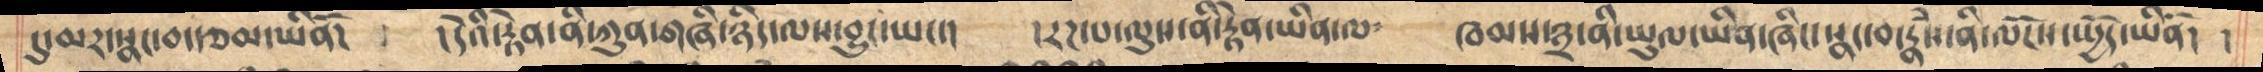དུ་མར་སྣང་བ་རྩམ་ཡིནོ།  །དེའི་རྟེན་ནི་ཀུན་གཞི་ཉིད་ལས་བྱུང་ཡང་། །རཌ་པ་ལུས་ནི་རྟེན་ཡིན་ལ༴    ཁམས་༣་ནི་ཡུལ་ཡིན་ཞིང་སྣང་བ་རྣཾས་ནི་ལོངས་སྤྱོད་ཡིནོ། །
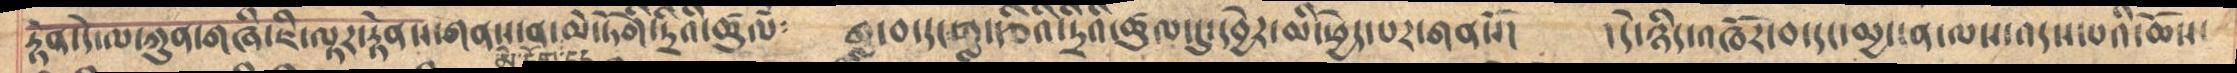རྟོན་དེ་ལ་ཀུན་གཞི་ཇི་ལྟར་རྟེནས་གནས་ན་མེ་ཏོག་དང་མེ་ཏོགི་དྲིའི་ཚུལ༴  གླ་བ་དང་གླ་རྩིའི་དྲིའི་ཚུལ་དུ་དབྱེར་མི་ཕྱེད་པར་གནསོ།    །དེ་ཉིད་འཁོར་བ་དང་མྱ་ངན་ལས་འདས་པའི་ཆོས་
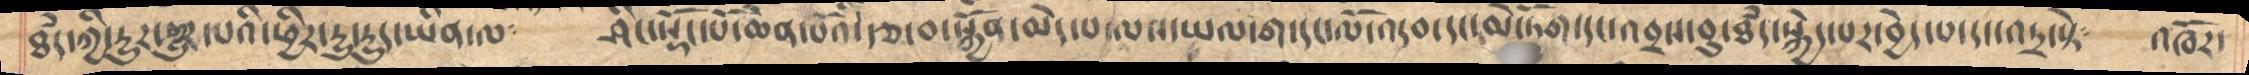ཐཾད་ཀྱི་དྱུར་གྱུར་པའི་ཕྱིར་དྱུ་དྱུད་ཡིན་ལ༴    ཤིང་སྡོང་པོ་ཆེན་པོའི་རྩ་བ་སྐྱོན་མེད་པ་ལས་ཡལ་ག་དང་ལོ་འདབ་དང་མེ་ཏོག་དང་འབྲས་བུ་ཐམད་སྐྱེད་པར་བྱེད་པ་དང་འདྲ་སྟེ༴   འཁོར་
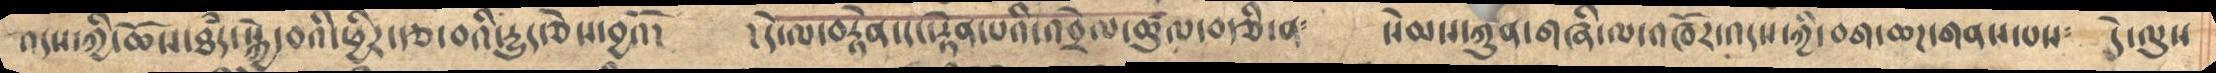འདས་ཀྱི་ཆོས་ཐཾད་སྐྱེ་བའི་ཕྱིར་རྩ་བའི་དྱུད་ཅེས་བྱའོ།    །དེ་ལ་བརྟེན་དང་རྟེན་པའི་འབྲེལ་ཚུལ་བརྩི་ན༴   སེམས་ཀུན་གཞི་ལ་འཁོར་འདས་ཀྱི་བག་ཆཌ་གནས་པས༴   དེ་ལུས
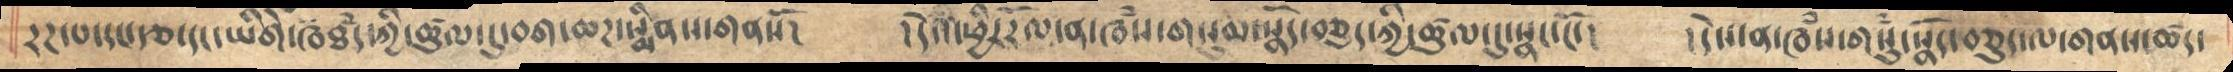རཌ་པ་དང་རྩ་དང་ཡིགེ་ཁཐམད་ཀྱི་ཚུལ་དུ་བག་ཆཌ་སྨིནས་གནསོ།   །དེའི་ཕྱི་རོལ་ན་ཁཾས་གསུམ་སྣོད་བཅུད་ཀྱི་ཚུལ་དུ་སྣང་ངོ་།   །དེས་ན་ཁཾས་གསུཾ་སྣོད་བཅུད་ལ་གནས་ཚད་
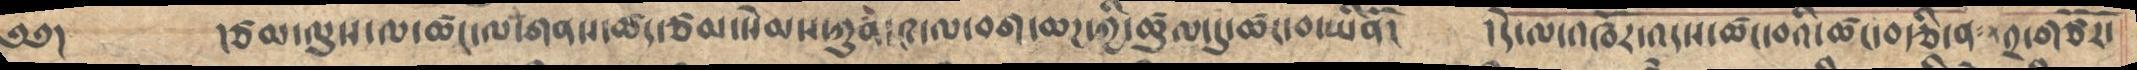༄༅།      །ཙམ་ལུས་ལ་ཚང་ལ་གནས་ཚད་ཙམ་སེམས་ཀུན་༤་ལ་བག་ཆཌ་ཀྱི་ཚུལ་དུ་ཚང་བ་ཡིནོ།    །དེ་ལ་འཁོར་འདས་ཚང་བའི་ཚང་བརྩི་ན་༢་གཙཽར་
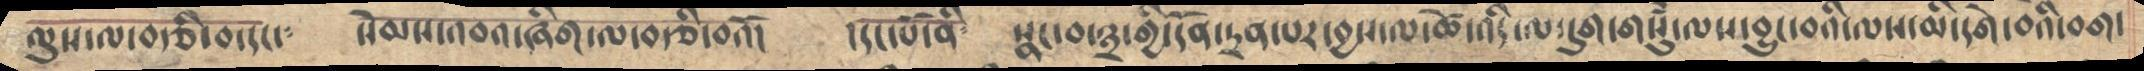ལུས་ལ་བརྩི་བ་དང་༴      སེམས་འབའ་ཞིག་ལ་བརྩི་བའོ།    །དང་པོ་ནི་      སྣང་བ་༣་གྱི་དོན་དྲན་པར་བྱས་ལ་ཚེ་འདི་ལ་དུག་གསུཾ་ལས་བྱུང་བའི་ལས་མི་དགེ་བའི་བག་
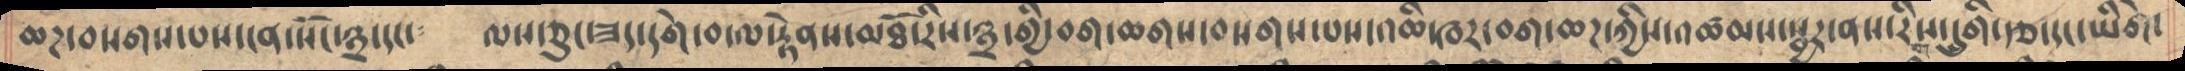ཆཌ་བསགས་པས་ངན་སོང་༣་དང་༴   ལས་ཅུང་ཟད་དགེ་བ་ལ་རྟེནས་མཐོ་རིས་༣་གྱི་བག་ཆགས་བསགས་པས་འཆི་ཁར་བག་ཆཌ་ཀྱིས་འཚམས་སྦྱར་ནས་རིགས་དྲུགི་རྩ་དང་ཡིགེ་
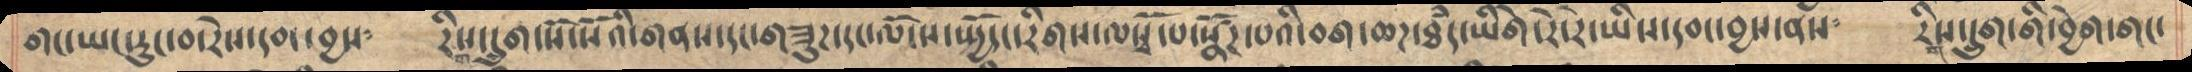གང་ཡང་རུང་བ་རེས་དབང་བྱས༴   རིགས་དྲུག་སོ་སོའི་གནས་དང་གཟུཌ་དང་ལོངས་སྤྱོད་རིགས་ལསྭོ་པ་སྣཚོཌ་པའི་བག་ཆཌ་ཐཾད་ཡིགེ་རེ་རེ་ཡིས་དབང་བྱས་ནས༴   རིགས་དྲུག་གི་བྱེག་གང་
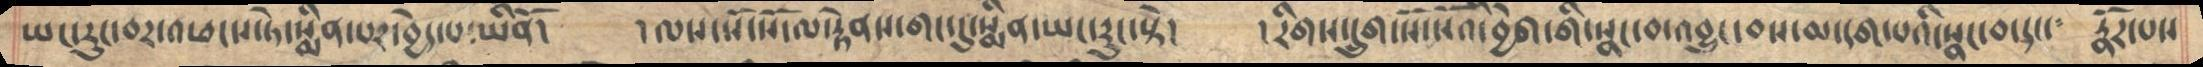ཡང་རུང་བར་འཕངས་ཏེ་སྨིན་པར་བྱེད་པ་ཡིནོ།    །ལས་སོ་སོ་ལ་རྟེནས་གང་དུ་སྨིན་ཡང་རུང་སྟེ།    །རིགས་དྲུག་སོ་སོའི་བྱེག་གི་སྣང་བ་འབྱུང་བས་མ་དག་པའི་སྣང་བ་དང་༴   རྣོར་པས
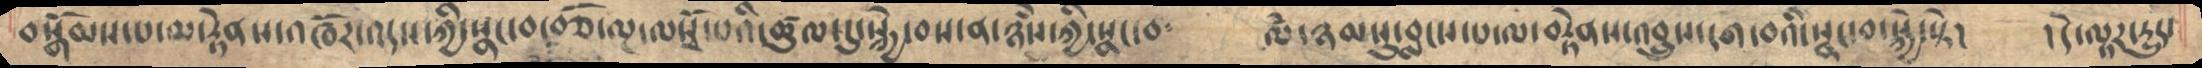བསྒོམས་པ་མ་རྟེནས་འཁོར་འདས་ཀྱི་སྣང་བ་བཅོ་ལྔ་ལསྭོ་པའི་ཚུལ་དུ་སྐྱེ་བས་ན་ཉཾས་ཀྱི་སྣང་བ༴    ལཾ་ཉམསུ་བླངས་པ་ལ་བརྟེནས་འབྲུས་དག་བའི་སྣང་བ་སྐྱེ་སྟེ།    །དེ་ལྟར་དྱུད་
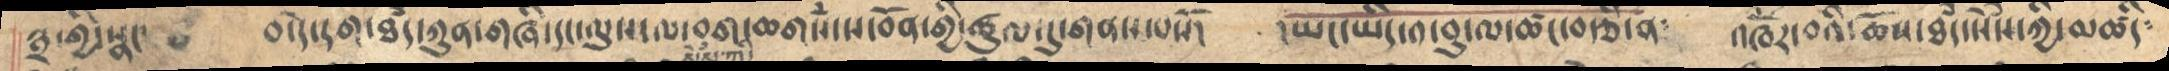༣་གྱི་སྣང་    བ་དེ་དག་ཐམད་ཀུན་གཞི་དང་ལུས་ལ་བག་ཆགསཾ་ས་བོན་གྱི་ཚུལ་དུ་གནས་པསོ།    །ཡང་ཡིད་༡་བུ་ལ་ཚང་བརྩི་ན༴    འཁོར་བའི་ཆོས་ཐམད་སེཾས་ཀྱི་མཚིད༴
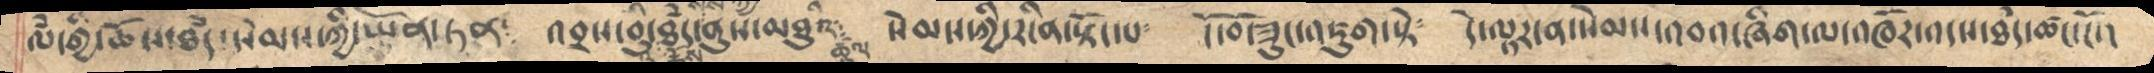ལཾ་གྱི་ཆོས་ཐཾད་སེམས་ཀྱི་ཡོན་ཏན༴  འབྲས་བུའི་ཆོས་ཐཾད་ནུས་མཐུའི་ཚུལ  སེམས་ཀྱི་རངིན་སྟོང་པ༴  ངོ་བོ་ཟུང་འཇུག་སྟེ༴   དེ་ལྟར་ན་སེམས་འབའ་ཞིག་ལ་འཁོར་འདས་ཐཾད་ཚང་ངོ་།
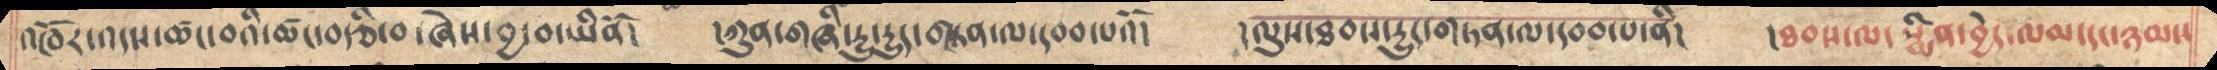འཁོར་འདས་ཚང་བའི་ཚང་བརྩི་བ་ཞེས་བྱ་བ་ཡིནོ།   །ཀུན་གཞི་དྱུ་དྱུད་གཏན་ལ་དབབ་པའོ།   །ལུས་ཐབས་དྱུད་གཏན་ལ་དབབ་པ་ནི།   །ཐབས་ལ་སྨིན་བྱེད་ལམ་དང་ཉམས
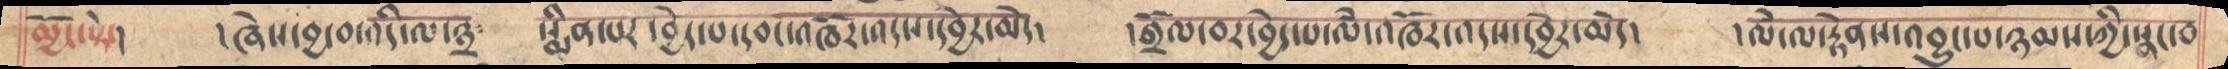མྱོང་སྟེ།   །ཞེས་བྱ་བ་འདི་ལ་༣༴    སྨིན་པར་བྱེད་པ་དབང་འཁོར་འདས་དབྱེར་མེད།   །གྲོལ་བར་བྱེད་པ་ལཾ་འཁོར་འདས་དབྱེར་མེད།   །ལཾ་ལ་རྟེནས་འབྱུང་པ་ཉམས་ཀྱི་སྣང་བ
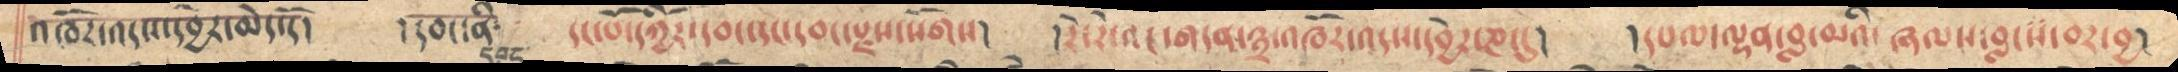འཁོར་འདས་དབྱེར་མེད་དོ།  །དབང་ནི་དབང་   དང་པོ་དཀྱིརོ་དབང་དང་དབང་སྫས་སོགས།  །རེ་རེ་འང་གདན་༣་འཁོར་འདས་དབྱེར་ཎ་དུ།  །དཔལ་ལྡན་བླ་མའི་ཞལས་བླངས་བར་བྱ།
